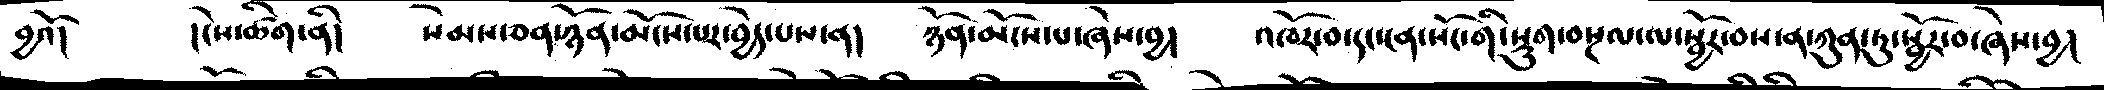བྱའོ།    །ངེས་ཚིག་ནི།    སེམས་ཅན་ཉོན་མོངས་པར་བྱེད་པས་ན།    ཉོན་མོངས་པ་ཞེས་བྱ།    འཁོར་བ་དང་ངན་སོང་གི་སྡུག་བསྔལ་ལ་སྦྱོར་བས་ན་ཀུན་ཏུ་སྦྱོར་བ་ཞེས་བྱ།
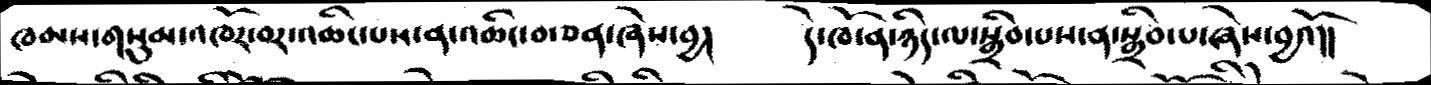ཁམས་གསུམ་འཁོར་བར་འཆིང་པས་ན་འཆིང་བ་ཅན་ཞེས་བྱ།     དེ་ཁོ་ན་ཉིད་ལ་སྒྲིབ་པས་ན་སྒྲིབ་པ་ཞེས་བྱའོ།།
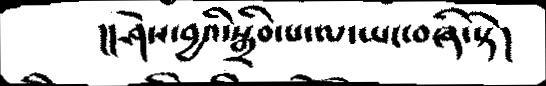།།ཤེས་བྱའི་སྒྲིབ་པ་ལ་ཡང་བཞི་སྟེ།
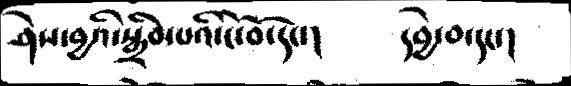ཤེས་བྱའི་སྒྲིབ་པའི་ངོ་བོ་དང་།    དབྱེ་བ་དང་།
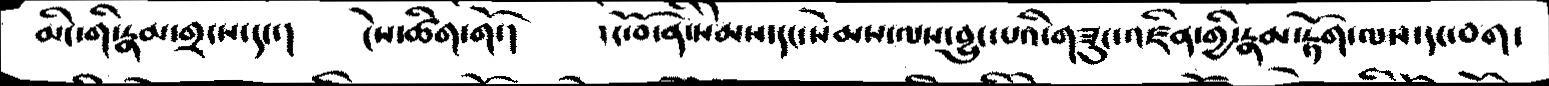མིང་གི་རྣམ་གྲངས་དང་།    ངེས་ཚིག་གོ་།     །ངོ་བོ་ནི་སེམས་དང་སེམས་ལས་བྱུང་པའི་གཟུང་འཛིན་གྱི་རྣམ་རྟོག་ལས་དང་བག་
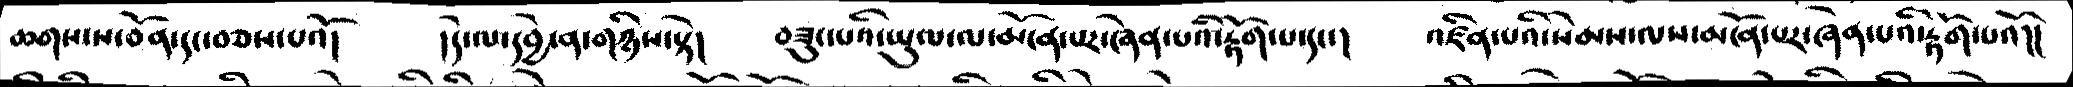ཆགས་ས་བོན་དང་བཅས་པའོ།   །དེ་ལ་དབྱེ་ན་གཉིས་སྟེ།    བཟུང་པའི་ཡུལ་ལ་མངོན་པར་ཞེན་པའི་རྟོག་པ་དང་།   འཛིན་པའི་སེམས་ལས་མངོན་པར་ཞེན་པའི་རྟོག་པའོ།།
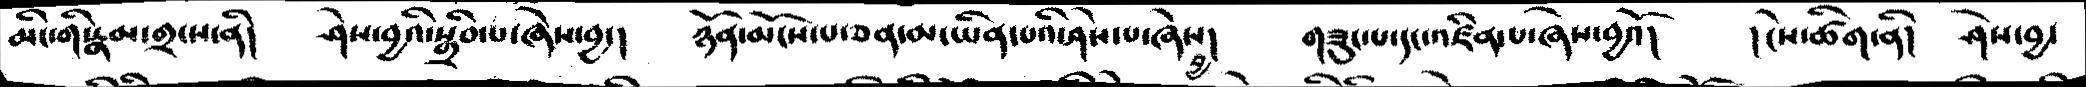མིང་གི་རྣམ་གྲངས་ནི།   ཤེས་བྱའི་སྒྲིབ་པ་ཞེས་བྱ་།    ཉོན་མོངས་པ་ཅན་མ་ཡིན་པའི་ཤེས་པ་ཞེས་བྱ།   གཟུང་པ་དང་འཛིན་པ་ཞེས་བྱའོ།   །ངེས་ཚིག་ནི།   ཤེས་བྱ་
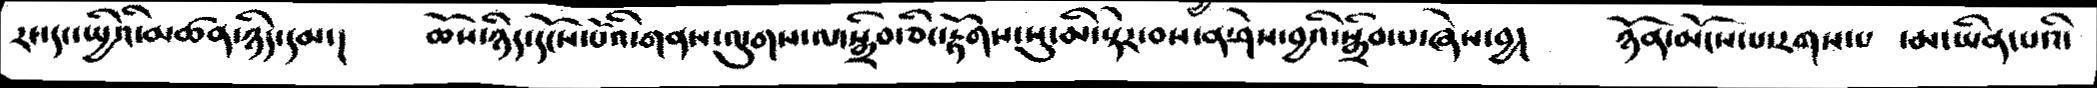རང་དང་སྤྱིའི་མཚན་ཉིད་དམ་།   ཆོས་ཉིད་དངོས་པོའི་གནས་ལུགས་ལ་སྒྲིབ་ཅིང་རྟོགས་སུ་མི་སྟེར་བས་ན་ཤེས་བྱའི་སྒྲིབ་པ་ཞེས་བྱ།   ཉོན་མོངས་པ་རགས་པ ་མཡིན་པའི་
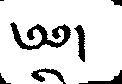༄༅།
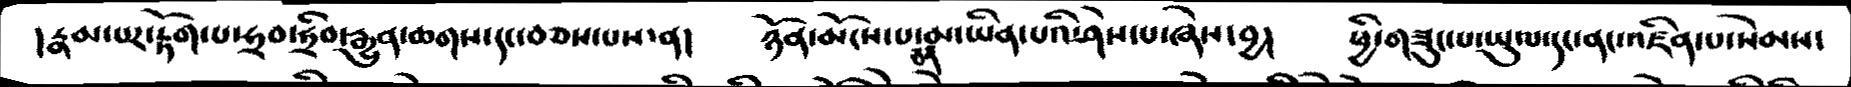།རྣམ་པར་རྟོག་པ་ཧྲབ་ཧྲིབ་རྒྱུན་ཆགས་དང་བཅས་པས་ན།   ཉོན་མོངས་པ་ཅན་མ་ཡིན་པའི་ཤེས་པ་ཞེས་བྱ།    ཕྱི་གཟུང་པ་ཡུལ་དང་ནང་འཛིན་པ་སེམས་
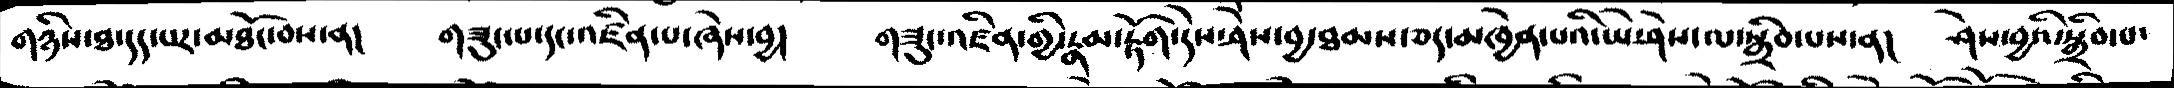གཉིས་ཐ་དད་པར་མཐོང་བས་ན།    གཟུང་པ་དང་འཛིན་པ་ཞེས་བྱ།     གཟུང་འཛིན་གྱི་རྣམ་རྟོག་དེས་ཤེས་བྱ་ཐམས་ཅད་མཁྱེན་པའི་ཡེ་ཤེས་ལ་སྒྲིབ་པས་ན།    ཤེས་བྱའི་སྒྲིབ་པ་
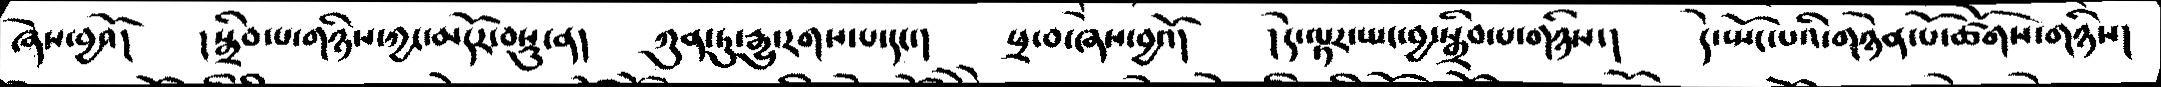ཞེས་བྱའོ།   །སྒྲིབ་པ་གཉིས་ཀྱང་མདོར་བསྡུ་ན།   ཀུན་ཏུ་རྒྱུ་རགས་པ་དང་།   ཕྲ་བ་ཞེས་བྱའོ།    །དེ་ལྟར་སྤང་བྱ་སྒྲིབ་པ་གཉིས་།    དེ་སྤོང་པའི་གཉེན་པོ་ཚོགས་གཉིས།
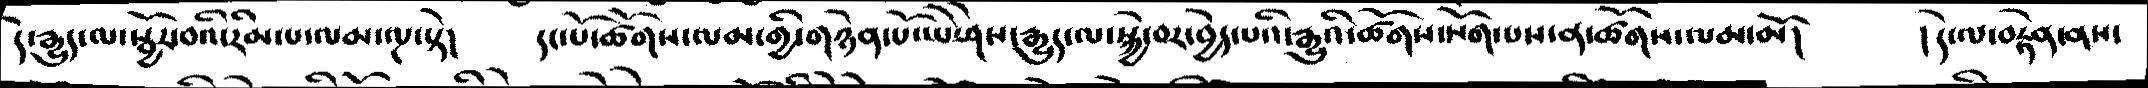དེ་རྒྱུད་ལ་སྦྱོར་བའི་རིམ་པ་ལམ་ལྔ་སྟེ།   དང་པོ་ཚོགས་ལམ་གྱི་གཉེན་པོ་ཡེ་ཤེས་རྒྱུད་ལ་སྐྱེ་བར་བྱེད་པའི་རྒྱུའི་ཚོགས་སོག་པས་ན་ཚོགས་ལམ་མོ།    །དེ་ལ་བརྟེན་ནས་
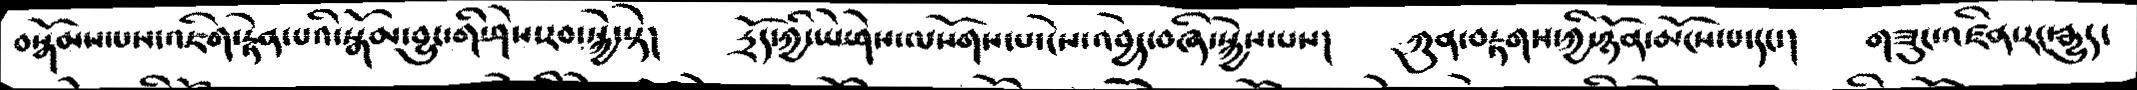བསྒོམས་པས་འཇིག་རྟེན་པའི་སྒོམ་བྱུང་གི་ཤེས་རབ་སྐྱེ་སྟེ།     དྲོད་ཀྱི་ཡེ་ཤེས་ལསོགས་པ་ངེས་འབྱེད་བཞི་སྐྱེས་པས།    ཀུན་བརྟགས་ཀྱི་ཉོན་མོངས་པ་དང་།     གཟུང་འཛིན་རང་རྒྱུད་
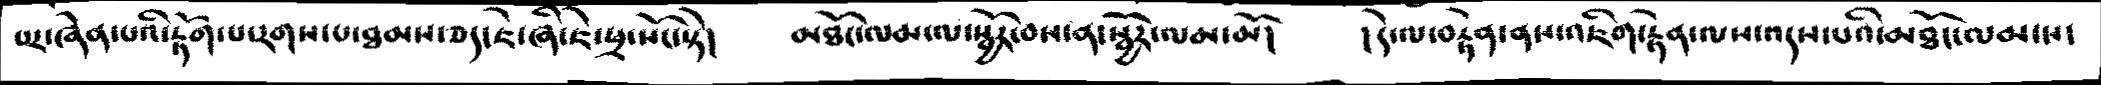པར་ཞེན་པའི་རྟོག་པ་རགས་པ་ཐམས་ཅད་ཇེ་ཞི་ཇེ་ཕྲ་སོང་སྟེ།    མཐོང་ལམ་ལ་སྦྱོར་བས་ན་སྦྱོར་ལམ་མོ།     །དེ་ལ་བརྟེན་ནས་འཇིག་རྟེན་ལས་འདས་པའི་མཐོང་ལམ་ས་
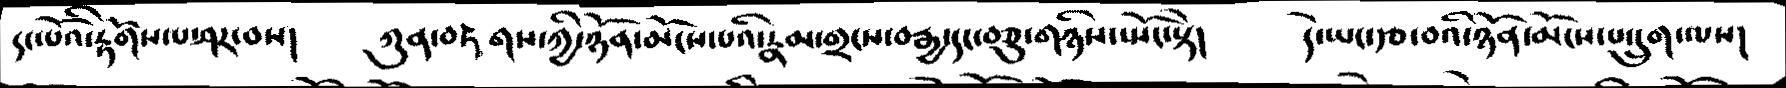དང་པོའི་རྟོགས་པ་ཤར་བས།    ཀུན་བརྟགས་ཀྱི་ཉོན་མོངས་པའི་རྣམ་གྲངས་བརྒྱ་དང་བཅུ་གཉིས་སྤོང་སྟེ།   དེ་ཡང་རྩ་བའི་ཉོན་མོངས་པ་དྲུག་ལས།
